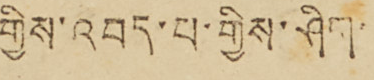གྱིས་འབད་པ་གྱིས་ཤིག
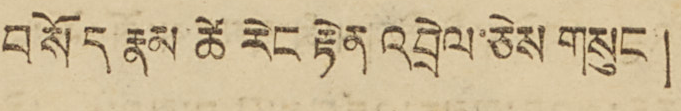བསོད རྣམ ཚེ རེང རྟེན འབྲེལ་ཅེས གསུང།
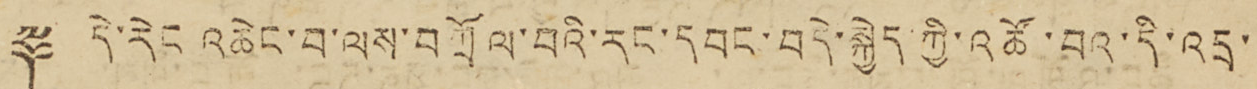༈ དེ་རེང འཆེང་བ་ལས་བཀྲོལ་བའི་རང་དབང་བདེ་སྐྱེད་ཀྱི་འཚོ་བའ་དི་འདྲ་
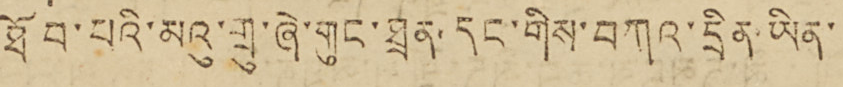ཐོབ་པའི་མའུ་གྲུ་ཞེ་གུང་ཐྲན་དང་གིས་བཀའ་དྲིན་ཡིན་
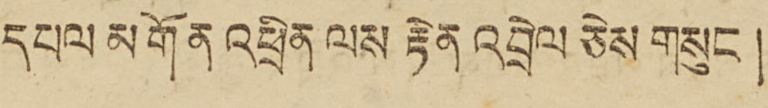དཔལ མགོན འཕྲིན ལས རྟེན འབྲེལ ཅེས གསུང །
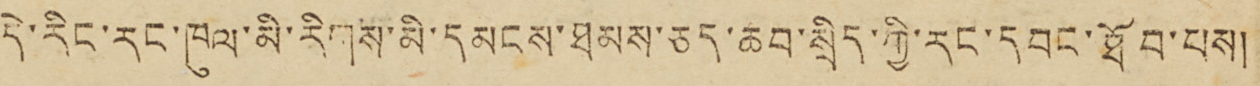དེ་རིང་རང་ཁུལ་མི་རིགས་མི་དམངས་ཐམས་ཅད་ཆབ་སྲིད་ཀྱི་རང་དབང་ཐོབ་པས།
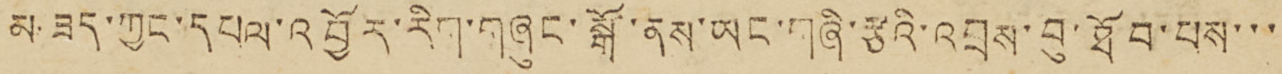མ་ཟད་ཀྱང་དཔལ་འབྱོར་རིག་གཞུང་སྒོ་ནས་ཡང་གཞི་རྩའི་འབྲས་བུ་ཐོབ་པས་་་
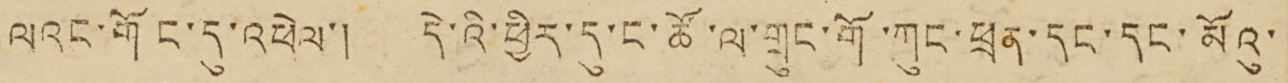ལའང་གོང་དུ་འཕེལ་། དེ་འི་ཕྱིར་དུ་ང་ཚོ་ལ་གྲུང་གོ་ཀུང་ཕྲན་དང་དང་མོའུ་
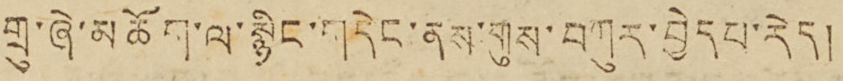གྲུ་ཞེ་མཆོག་ལ་སྙིང་གདེང་ནས་གུས་བཀུར་བྱེདཔ་རེད།
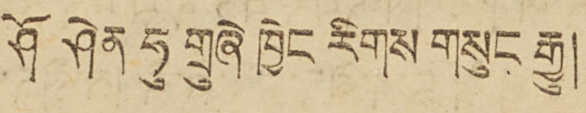ཤོ ཤེན ཧུ གྲུཞེ ཁྱེང རིགས གསུང རྒྱུ།
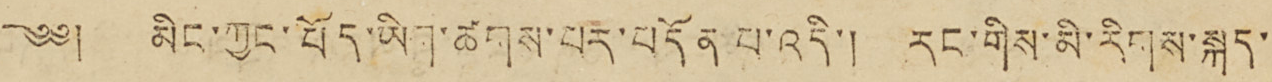༄༅། མིང་ཀྱང་བོད་ཡིག་ཚགས་པར་བདོན པ་འདི་། རང་གིས་མི་རིགས་སྐད་
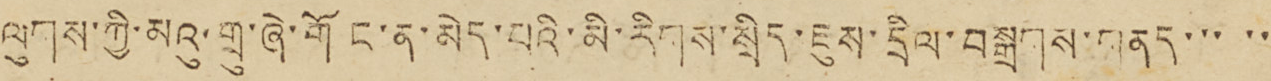ལུགས་ཀྱི་མའུ་གྲུ་ཞེ་གོང་ན་མེད་པའི་མི་རིགས་སྲིད་ཇུས་དྲིལ་བསྒྲགས་གནད་་་་་
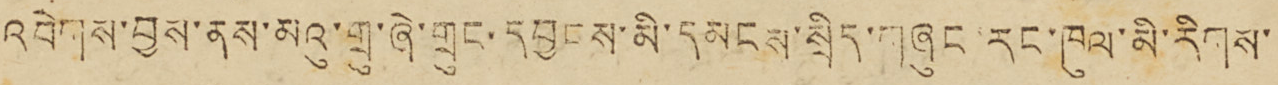འབེགས་བྱས་ནས་མའུ་གྲུ་ཞེ་གྲུང་དབྱངས་མི་དམངས་སྲིད་གཞུང་རང་ཁུལ་མི་རིགས་
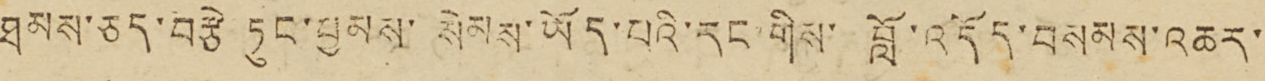ཐམས་ཅད་བརྩེ ཏུང་བྱམས་སེམས་ཡོད་པའི་རང་གིས་ བློ་འདོད་བསམས་འཆར་
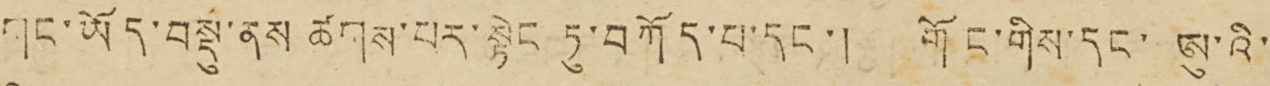གང་ཡོད་བསྡུ་ནས ཚགས་པར་སྟེང ཏུ་བཀོད་པ་དང་། གོང་གིས་དང་ ཨུ་འི་
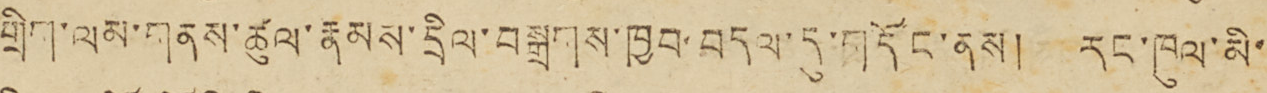གྲིག་ལམ་གནས་ཚུལ་རྣམས་དྲིལ་བསྒྲགས་ཁྱབ་བདལ་དུ་གདོང་ནས། རང་ཁུལ་མི་
